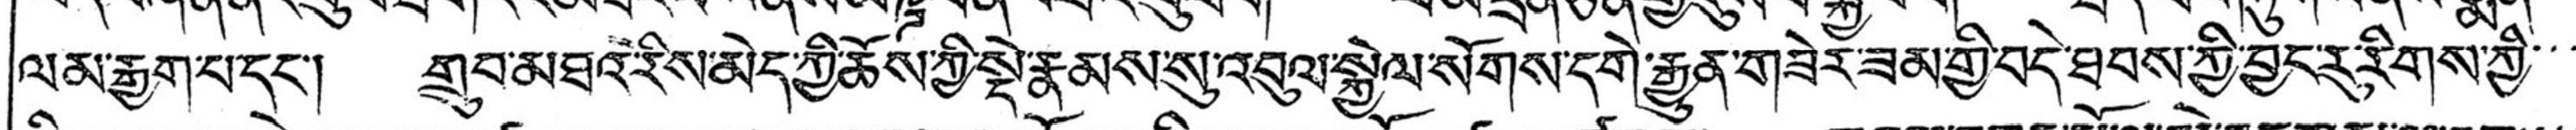ལམ་རྒྱག་པ་དང་། གྲུབ་མཐའ་རིས་མེད་ཀྱི་ཆོས་ཀྱི་སྡེ་རྣམས་སུ་འབུལ་སྐྱེལ་སོགས་དགེ་རྒྱུན་གཟེར་ཟམ་གྱི་བདེ་ཐབས་ཀྱི་བྱང་རུ་རིགས་ཀྱི་་་
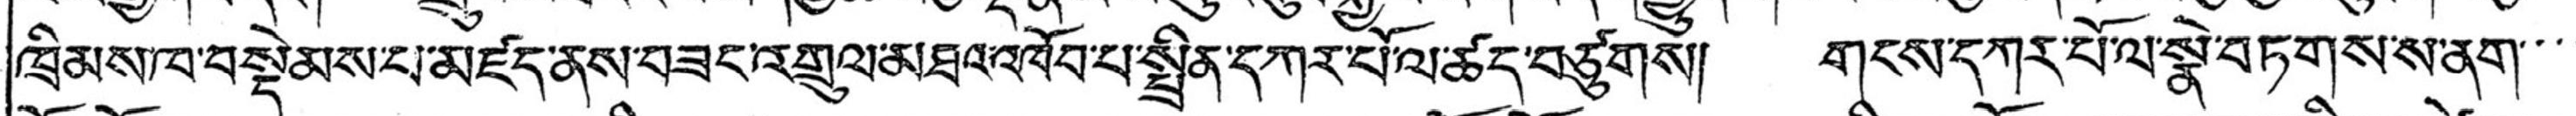ཁྲིམས་ཁ་བསྡེམས་པ་མཛད་ནས་བཟང་འགྲུལ་མཐའ་འཁོབ་པ་སྤྲིན་དཀར་པོ་ལ་ཚད་བཙུགས། གངས་དཀར་པོ་ལ་སྣེ་བཏགས་ས་ནག་་་་
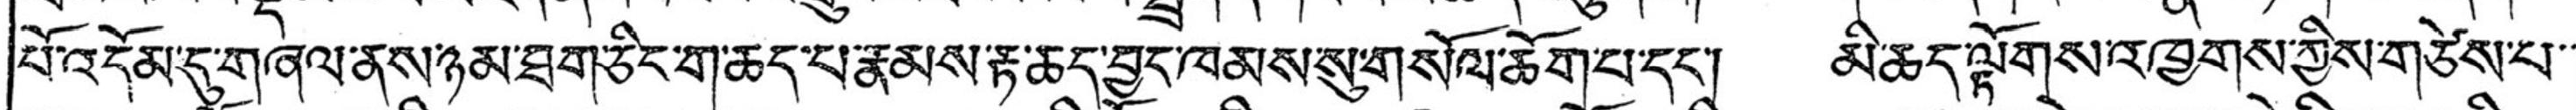པོ་འདོམ་དུ་གཞལ་ནས་ཉམ་ཐག་ཅིང་ག་ཆད་པ་རྣམས་རྟ་ཆད་བྱུང་ཁམས་སུ་གསོལ་ཆོག་པ་དང་། མི་ཆད་ལྟོགས་འཁྱགས་ཀྱིས་གཙེས་པ་་
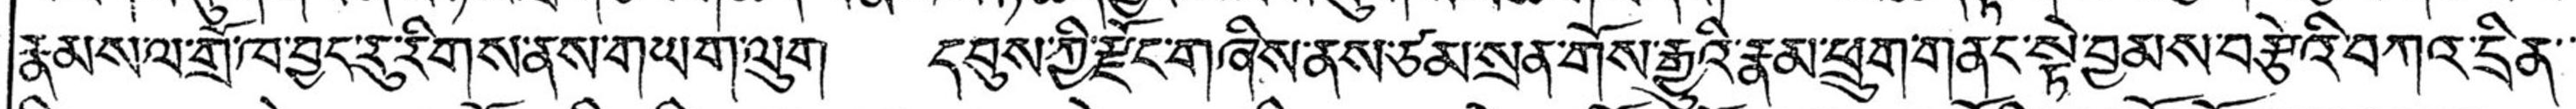རྣམས་ལ་གྲོ་ཁ་བྱང་རུ་རིགས་ནས་གཡག་ལུག དབུས་ཀྱི་རྫོང་གཞིས་ནས་ཙམ་སྲན་གོས་རྒྱའི་རྣམ་ཕྲུག་གནང་སྟེ་བྱམས་བརྩེའི་བཀའ་དྲིན་་་
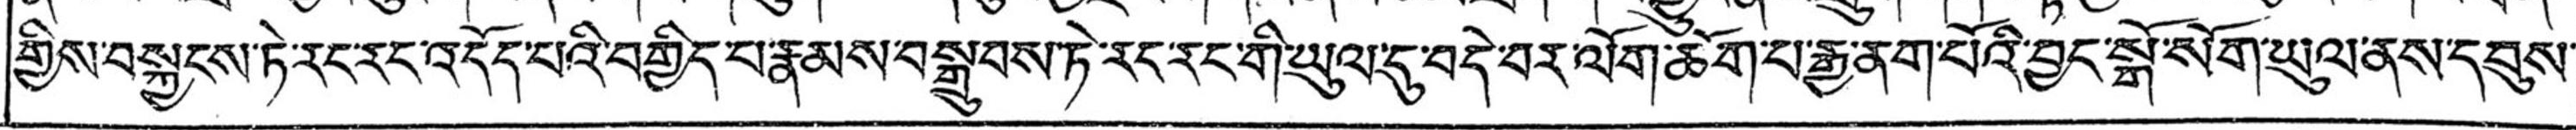གྱིས་བསྐྱངས་ཏེ་རང་རང་འདོད་པའི་བགྱིད་བ་རྣམས་བསྒྲུབས་ཏེ་རང་རང་གི་ཡུལ་དུ་བདེ་བར་ལོགཆོག་པ་རྒྱ་ནག་པོའི་བྱང་སྒོ་སོག་ཡུལ་ནས་དབུས་
